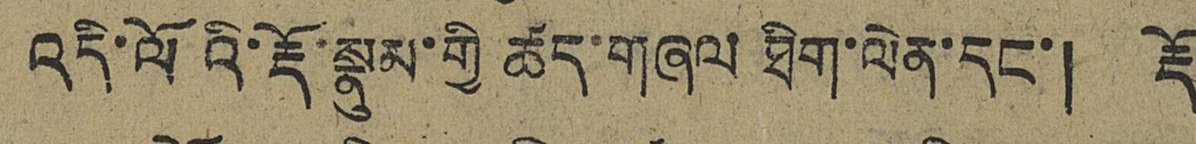འདི་ལོའི་རྡོ་སྣུམ་གྱི ཚད་གཞལ ཐིག་ལེན་དང་། རྡོ་
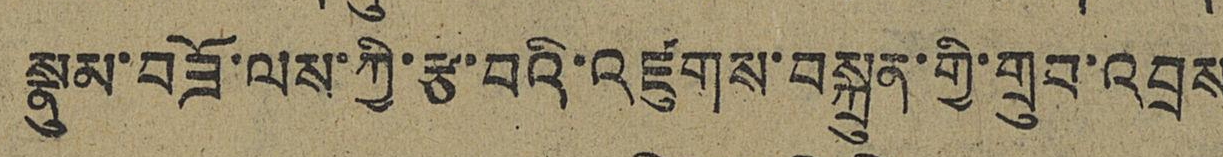སྣུམ་བཟོ་ལས་ཀྱི་རྩ་བའི་འཛུགས་བསྐྲུན་གྱི་གྲུབ་འབྲས
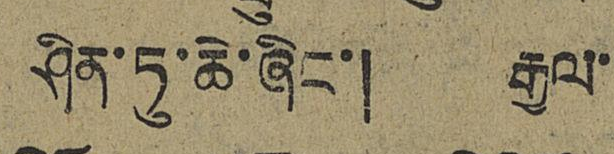ཤིན་ཏུ་ཆེ་ཞིང་། རྒྱལ་
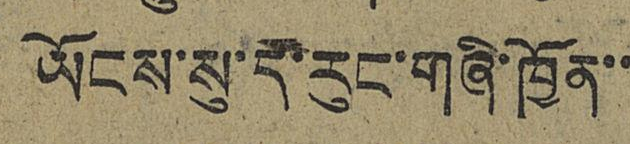ཡོངས་སུ་དེ་རུང་གཞི་ཁྱོན་་་
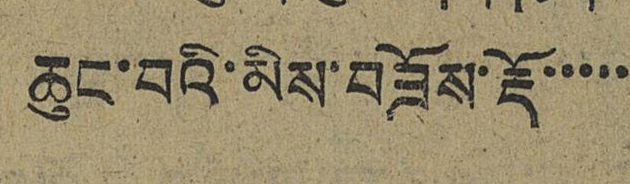ཆུང་བའི་མིས་བཟོས་རྡོ་་་་་
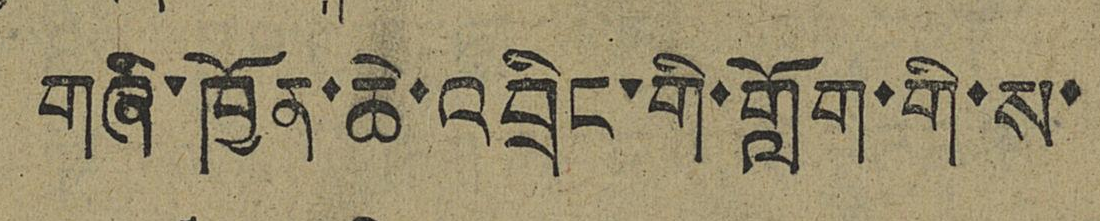གཞི་ཁྱོན་ཆེ་འབྲིང་གི་གློག་གི་ས་
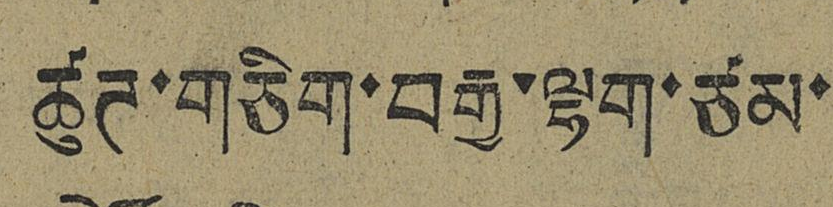ཚུཊ་གཅིག་བརྒྱ་ལྷག་ཙམ་
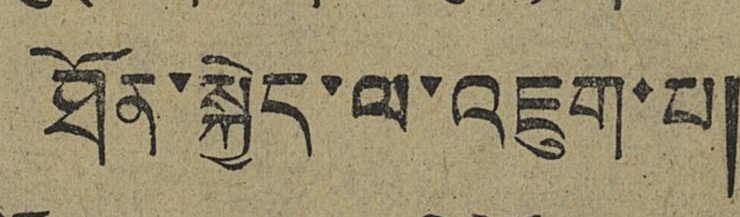ཐོན་སྐྱེད་ལ་འཇུག་པ།
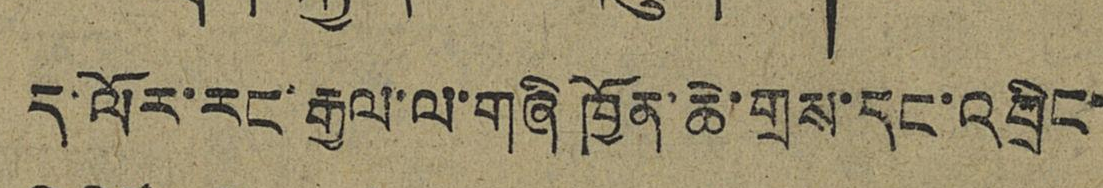ད་ལོར་རང་རྒྱལ་ལ་གཞི་ཁྱོན་ཆེ་གྲས་དང་འབྲིང་
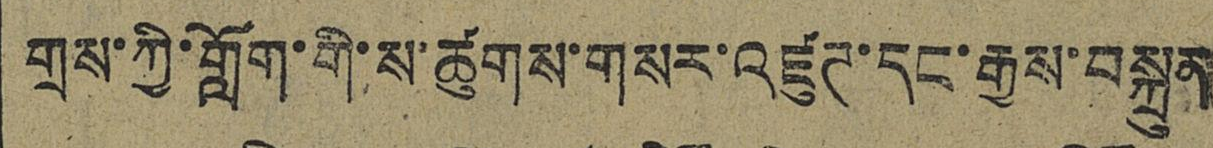གྲས་ཀྱི་གློག་གི་ས་ཚུགས་གསར་འཛུཊ་དང་རྒྱས་བསྐྲུན
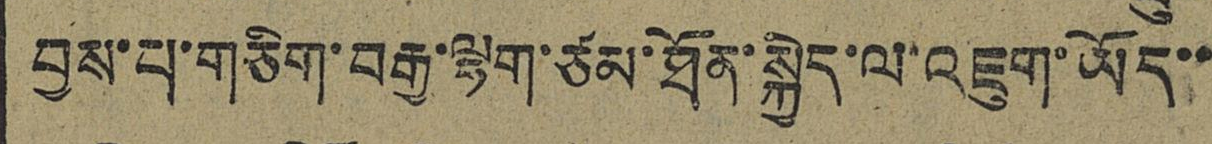བྱས་པ་གཅིག་བརྒྱ་ལྷག་ཙམ་ཐོན་སྐྱེད་ལ་འཇུག་ཡོད་་
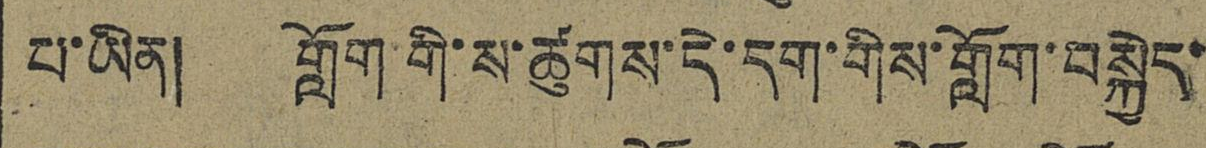པ་ཡིན། གློག་གི་ས་ཚུགས་དེ་དག་གིས་གློག་བསྐྱེད་
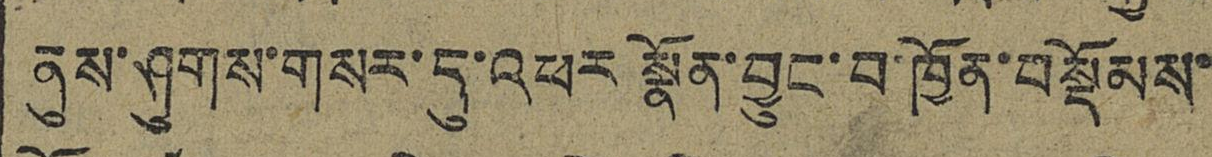ནུས་ཤུགས་གསར་དུ་འཕར སྣོན་བྱུང་བ་ཁྱོན་བསྡོམས་
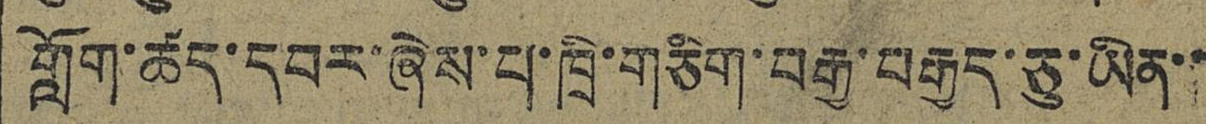གློག་ཚད་དབར་ཞེས་པ་ཁྲི་གཅིག་བརྒྱ་བརྒྱད་ཅུ་ཡིན་་
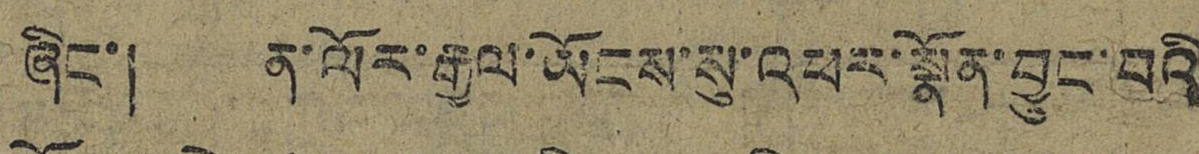ཞིང་། ན་ལོར་རྒྱལ་ཡོངས་སུ་འཕར་སྣོན་བྱུང་བའི་
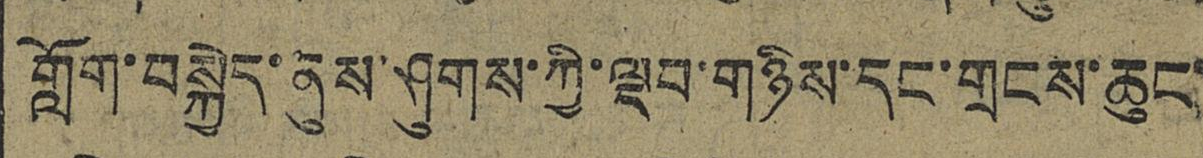གློག་བསྐྱེད་ནུས་ཤུགས་ཀྱི་ལྡབ་གཉིས་དང་གྲངས་ཆུང་
